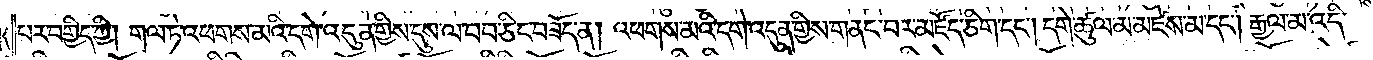པར་བགྱིད་ཀྱི། གལ་ཏེ་འཕགས་མའི་དགེ་འདུན་གྱིས་དུས་ལ་བབ་ཅིང་བཟོད་ན། འཕགས་མའི་དགེ་འདུན་གྱིས་གནང་བར་མཛོད་ཅིག་དང༌། དགེ་ཚུལ་མ་མཛེས་མ་དང༌། རྒྱལ་མ་འདི་
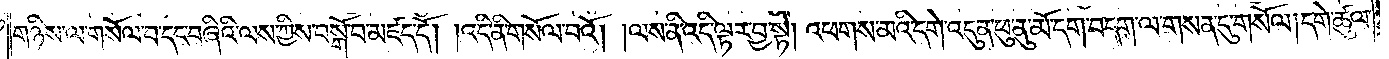གཉིས་ལ་གསོལ་བ་དང་བཞིའི་ལས་ཀྱིས་བསྒོ་བ་མཛད་དོ། །འདི་ནི་གསོལ་བའོ། །ལས་ནི་འདི་ལྟར་བྱ་སྟེ། འཕགས་མའི་དགེ་འདུན་ཕུ་ནུ་མོ་དག་བདག་ལ་གསན་དུ་གསོལ། དགེ་ཚུལ་
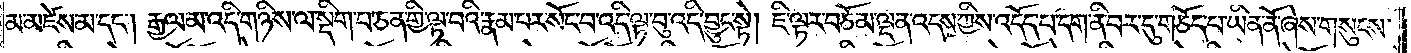མ་མཛེས་མ་དང༌། རྒྱལ་མ་འདི་གཉིས་ལ་སྡིག་པ་ཅན་གྱི་ལྟ་བའི་རྣམ་པར་སོང་བ་འདི་ལྟ་བུ་འདི་བྱུང་སྟེ། ཇི་ལྟར་བཅོམ་ལྡན་འདས་ཀྱིས་འདོད་པ་དག་ནི་བར་དུ་གཅོད་པ་ཡིན་ནོ་ཞེས་གསུངས་
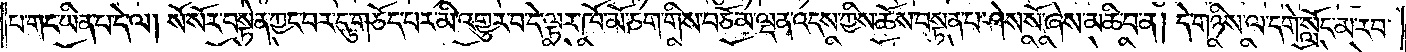པ་གང་ཡིན་པ་དེ་ལ། སོ་སོར་བསྟེན་ཀྱང་བར་དུ་གཅོད་པར་མི་འགྱུར་བ་དེ་ལྟར་ཁོ་མོ་ཅག་གིས་བཅོམ་ལྡན་འདས་ཀྱིས་ཆོས་བསྟན་པ་ཤེས་སོ་ཞེས་མཆི་བ་ན། དེ་གཉིས་ལ་དགེ་སློང་མ་རབ་
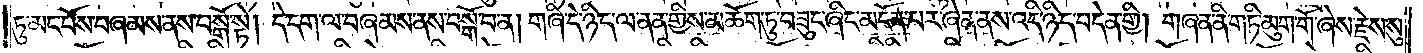ཏུ་མང་པོས་བཞམས་ནས་བསྒོ་སྟེ། དེ་དག་ལ་བཞམས་ནས་བསྒོ་བ་ན། གཞི་དེ་ཉིད་ལ་ནན་གྱིས་མཆོག་ཏུ་བཟུང་ཞིང་མངོན་པར་ཞེན་ནས་འདི་ཉིད་བདེན་གྱི། གཞན་ནི་གཏི་མུག་གོ་ཞེས་རྗེས་སུ་
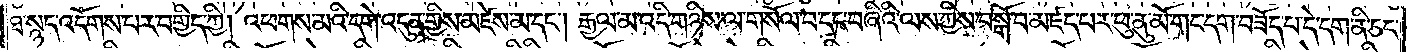ཐ་སྙད་འདོགས་པར་བགྱིད་ཀྱི། འཕགས་མའི་དགེ་འདུན་གྱིས་མཛེས་མ་དང༌། རྒྱལ་མ་འདི་གཉིས་ལ་གསོལ་བ་དང་བཞིའི་ལས་ཀྱིས་བསྒོ་བ་མཛད་པར་ཕུ་ནུ་མོ་གང་དག་བཟོད་པ་དེ་དག་ནི་ཅང་
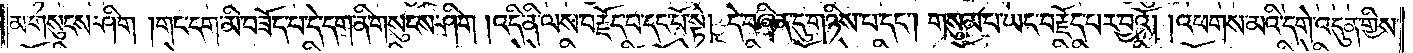མ་གསུངས་ཤིག །གང་དག་མི་བཟོད་པ་དེ་དག་ནི་གསུངས་ཤིག །འདི་ནི་ལས་བརྗོད་པ་དང་པོ་སྟེ། དེ་བཞིན་དུ་གཉིས་པ་དང༌། གསུམ་པ་ཡང་བརྗོད་པར་བྱའོ། །འཕགས་མའི་དགེ་འདུན་གྱིས་
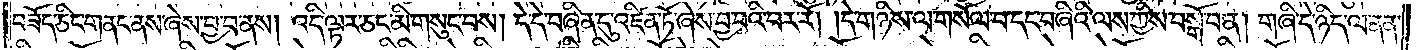བཟོད་ཅིང་གནང་ནས་ཞེས་བྱ་བ་ནས། འདི་ལྟར་ཅང་མི་གསུང་བས། དེ་དེ་བཞིན་དུ་འཛིན་ཏོ་ཞེས་བྱ་བའི་བར་རོ། །དེ་གཉིས་ལ་གསོལ་བ་དང་བཞིའི་ལས་ཀྱིས་བསྒོ་བ་ན། གཞི་དེ་ཉིད་ལ་ནན་
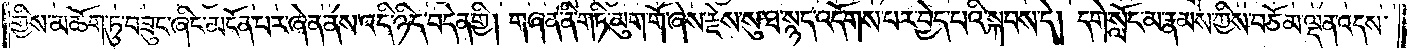གྱིས་མཆོག་ཏུ་བཟུང་ཞིང་མངོན་པར་ཞེན་ནས་འདི་ཉིད་བདེན་གྱི། གཞན་ནི་གཏི་མུག་གོ་ཞེས་རྗེས་སུ་ཐ་སྙད་འདོགས་པར་བྱེད་པའི་སྐབས་དེ། དགེ་སློང་མ་རྣམས་ཀྱིས་བཅོམ་ལྡན་འདས་
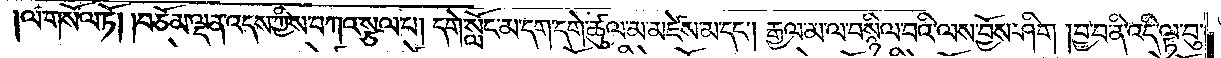ལ་གསོལ་ཏོ། །བཅོམ་ལྡན་འདས་ཀྱིས་བཀའ་སྩལ་པ། དགེ་སློང་མ་དག་དགེ་ཚུལ་མ་མཛེས་མ་དང༌། རྒྱལ་མ་ལ་བསྙིལ་བའི་ལས་བྱོས་ཤིག །བྱ་བ་ནི་འདི་ལྟ་བུ་
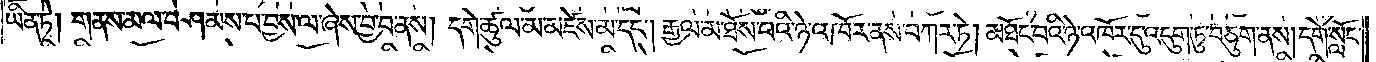ཡིན་ཏེ། གནས་མལ་བཤམས་པ་བྱས་ལ་ཞེས་བྱ་བ་ནས། དགེ་ཚུལ་མ་མཛེས་མ་དང༌། རྒྱལ་མ་ཐོས་པའི་ཉེ་འཁོར་ནས་བཀར་ཏེ། མཐོང་བའི་ཉེ་འཁོར་དུ་འདུག་ཏུ་བཅུག་ནས། དགེ་སློང་
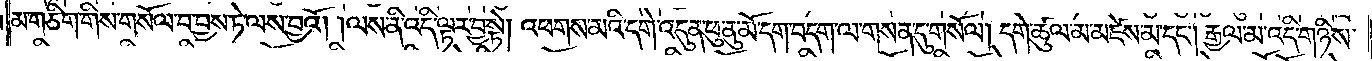མ་གཅིག་གིས་གསོལ་བ་བྱས་ཏེ་ལས་བྱའོ། །ལས་ནི་འདི་ལྟར་བྱ་སྟེ། འཕགས་མའི་དགེ་འདུན་ཕུ་ནུ་མོ་དག་བདག་ལ་གསན་དུ་གསོལ། དགེ་ཚུལ་མ་མཛེས་མ་དང༌། རྒྱལ་མ་འདི་གཉིས་
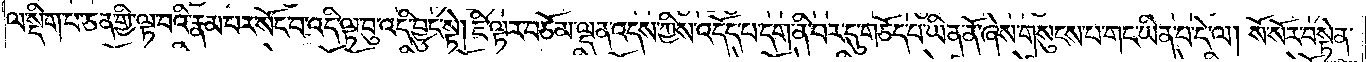ལ་སྡིག་པ་ཅན་གྱི་ལྟ་བའི་རྣམ་པར་སོང་བ་འདི་ལྟ་བུ་འདི་བྱུང་སྟེ། ཇི་ལྟར་བཅོམ་ལྡན་འདས་ཀྱིས་འདོད་པ་དག་ནི་བར་དུ་གཅོད་པ་ཡིན་ནོ་ཞེས་གསུངས་པ་གང་ཡིན་པ་དེ་ལ། སོ་སོར་བསྟེན་
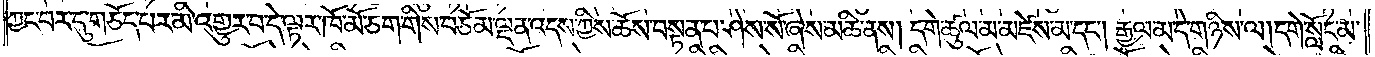ཀྱང་བར་དུ་གཅོད་པར་མི་འགྱུར་པ་དེ་ལྟར་ཁོ་མོ་ཅག་གིས་བཅོམ་ལྡན་འདས་ཀྱིས་ཆོས་བསྟན་པ་ཤེས་སོ་ཞེས་མཆི་ནས། དགེ་ཚུལ་མ་མཛེས་མ་དང༌། རྒྱལ་མ་དེ་གཉིས་ལ། དགེ་སློང་མ་
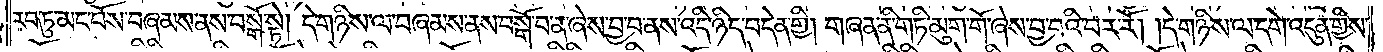རབ་ཏུ་མང་པོས་བཞམས་ནས་བསྒོ་སྟེ། དེ་གཉིས་ལ་བཞམས་ནས་བསྒོ་བ་ན་ཞེས་བྱ་བ་ནས་འདི་ཉིད་བདེན་གྱི། གཞན་ནི་གཏི་མུག་གོ་ཞེས་བྱ་བའི་བར་རོ། །དེ་གཉིས་ལ་དགེ་འདུན་གྱིས་
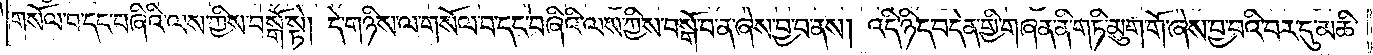གསོལ་བ་དང་བཞིའི་ལས་ཀྱིས་བསྒོ་སྟེ། དེ་གཉིས་ལ་གསོལ་བ་དང་བཞིའི་ལས་ཀྱིས་བསྒོ་བ་ན་ཞེས་བྱ་བ་ནས། འདི་ཉིད་བདེན་གྱི་གཞན་ནི་གཏི་མུག་གོ་ཞེས་བྱ་བའི་བར་དུ་མཆི་
